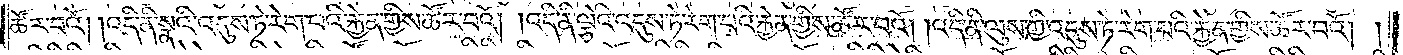ཚོར་བའོ། །འདི་ནི་སྣའི་འདུས་ཏེ་རེག་པའི་རྐྱེན་གྱིས་ཚོར་བའོ། །འདི་ནི་ལྕེའི་འདུས་ཏེ་རེག་པའི་རྐྱེན་གྱིས་ཚོར་བའོ། །འདི་ནི་ལུས་ཀྱི་འདུས་ཏེ་རེག་པའི་རྐྱེན་གྱིས་ཚོར་བའོ། །
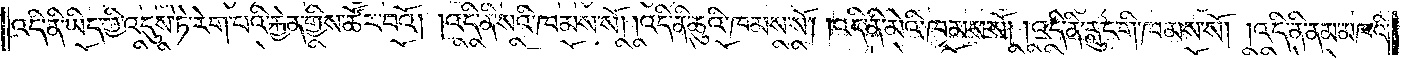འདི་ནི་ཡིད་ཀྱི་འདུས་ཏེ་རེག་པའི་རྐྱེན་གྱིས་ཚོར་བའོ། །འདི་ནི་སའི་ཁམས་སོ། །འདི་ནི་ཆུའི་ཁམས་སོ། །འདི་ནི་མེའི་ཁམས་སོ། །འདི་ནི་རླུང་གི་ཁམས་སོ། །འདི་ནི་ནམ་མཁའི་
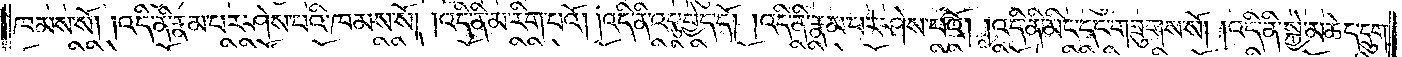ཁམས་སོ། །འདི་ནི་རྣམ་པར་ཤེས་པའི་ཁམས་སོ། །འདི་ནི་མ་རིག་པའོ། །འདི་ནི་འདུ་བྱེད་དོ། །འདི་ནི་རྣམ་པར་ཤེས་པའོ། །འདི་ནི་མིང་དང་གཟུགས་སོ། །འདི་ནི་སྐྱེ་མཆེད་དྲུག་
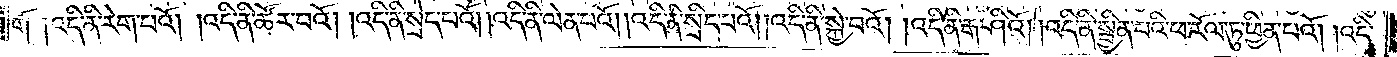གོ །འདི་ནི་རེག་པའོ། །འདི་ནི་ཚོར་བའོ། །འདི་ནི་སྲེད་པའོ། །འདི་ནི་ལེན་པའོ། །འདི་ནི་སྲིད་པའོ། །འདི་ནི་སྐྱེ་བའོ། །འདི་ནི་རྒ་ཤིའོ། །འདི་ནི་སྦྱིན་པའི་ཕ་རོལ་ཏུ་ཕྱིན་པའོ། །འདི་
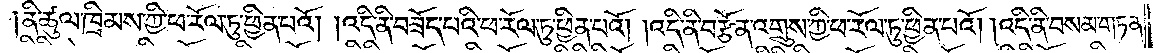ནི་ཚུལ་ཁྲིམས་ཀྱི་ཕ་རོལ་ཏུ་ཕྱིན་པའོ། །འདི་ནི་བཟོད་པའི་ཕ་རོལ་ཏུ་ཕྱིན་པའོ། །འདི་ནི་བརྩོན་འགྲུས་ཀྱི་ཕ་རོལ་ཏུ་ཕྱིན་པའོ། །འདི་ནི་བསམ་གཏན་
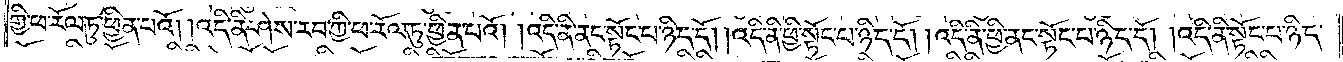གྱི་ཕ་རོལ་ཏུ་ཕྱིན་པའོ། །འདི་ནི་ཤེས་རབ་ཀྱི་ཕ་རོལ་ཏུ་ཕྱིན་པའོ། །འདི་ནི་ནང་སྟོང་པ་ཉིད་དོ། །འདི་ནི་ཕྱི་སྟོང་པ་ཉིད་དོ། །འདི་ནི་ཕྱི་ནང་སྟོང་པ་ཉིད་དོ། །འདི་ནི་སྟོང་པ་ཉིད་
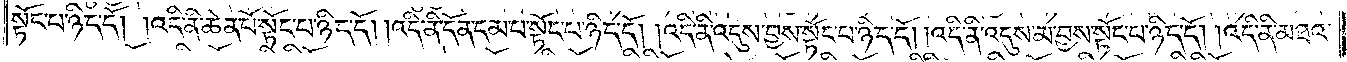སྟོང་པ་ཉིད་དོ། །འདི་ནི་ཆེན་པོ་སྟོང་པ་ཉིད་དོ། །འདི་ནི་དོན་དམ་པ་སྟོང་པ་ཉིད་དོ། །འདི་ནི་འདུས་བྱས་སྟོང་པ་ཉིད་དོ། །འདི་ནི་འདུས་མ་བྱས་སྟོང་པ་ཉིད་དོ། །འདི་ནི་མཐའ་
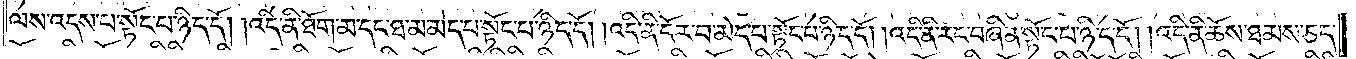ལས་འདས་པ་སྟོང་པ་ཉིད་དོ། །འདི་ནི་ཐོག་མ་དང་ཐ་མ་མེད་པ་སྟོང་པ་ཉིད་དོ། འདི་ནི་དོར་བ་མེད་པ་སྟོང་པ་ཉིད་དོ། །འདི་ནི་རང་བཞིན་སྟོང་པ་ཉིད་དོ། །འདི་ནི་ཆོས་ཐམས་ཅད་
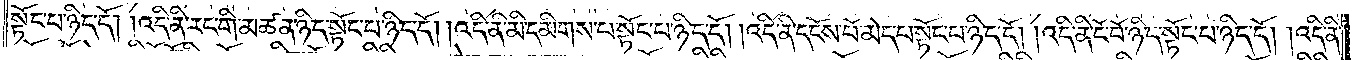སྟོང་པ་ཉིད་དོ། །འདི་ནི་རང་གི་མཚན་ཉིད་སྟོང་པ་ཉིད་དོ། །འདི་ནི་མི་དམིགས་པ་སྟོང་པ་ཉིད་དོ། །འདི་ནི་དངོས་པོ་མེད་པ་སྟོང་པ་ཉིད་དོ། །འདི་ནི་ངོ་བོ་ཉིད་སྟོང་པ་ཉིད་དོ། །འདི་ནི་
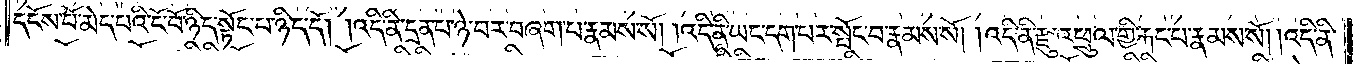དངོས་པོ་མེད་པའི་ངོ་བོ་ཉིད་སྟོང་པ་ཉིད་དོ། །འདི་ནི་དྲན་པ་ཉེ་བར་བཞག་པ་རྣམས་སོ། །འདི་ནི་ཡང་དག་པར་སྤོང་བ་རྣམས་སོ། །འདི་ནི་རྫུ་འཕྲུལ་གྱི་རྐང་པ་རྣམས་སོ། །འདི་ནི་
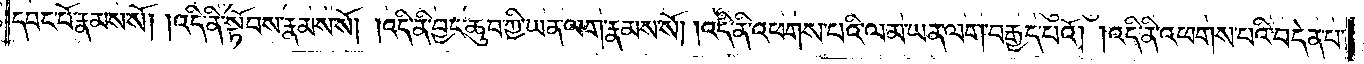དབང་པོ་རྣམས་སོ། །འདི་ནི་སྟོབས་རྣམས་སོ། །འདི་ནི་བྱང་ཆུབ་ཀྱི་ཡན་ལག་རྣམས་སོ། །འདི་ནི་འཕགས་པའི་ལམ་ཡན་ལག་བརྒྱད་པའོ། །འདི་ནི་འཕགས་པའི་བདེན་པ་
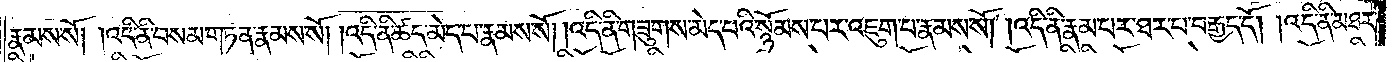རྣམས་སོ། །འདི་ནི་བསམ་གཏན་རྣམས་སོ། །འདི་ནི་ཚད་མེད་ པ་རྣམས་སོ། །འདི་ནི་གཟུགས་མེད་པའི་སྙོམས་པར་འཇུག་པ་རྣམས་ སོ། །འདི་ནི་རྣམ་པར་ཐར་པ་བརྒྱད་དོ། །འདི་ནི་མཐར་
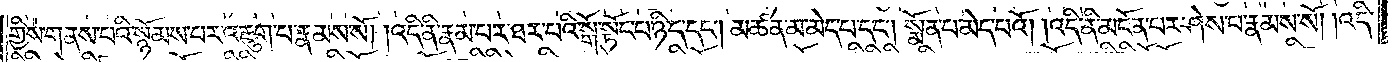གྱིས་གནས་པའི་སྙོམས་པར་འཇུག་པ་རྣམས་སོ། །འདི་ནི་རྣམ་པར་ཐར་པའི་སྒོ་སྟོང་པ་ཉིད་དང༌། མཚན་མ་མེད་པ་དང༌། སྨོན་པ་མེད་པའོ། །འདི་ནི་མངོན་པར་ཤེས་པ་རྣམས་སོ། །འདི་
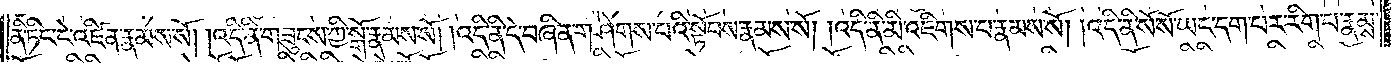ནི་ཏིང་ངེ་འཛིན་རྣམས་སོ། །འདི་ནི་གཟུངས་ཀྱི་སྒོ་རྣམས་སོ། །འདི་ནི་དེ་བཞིན་གཤེགས་པའི་སྟོབས་རྣམས་སོ། །འདི་ནི་མི་འཇིགས་པ་རྣམས་སོ། །འདི་ནི་སོ་སོ་ཡང་དག་པར་རིག་པ་རྣམས་
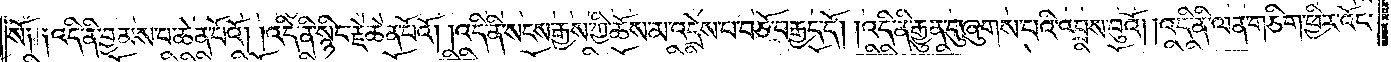སོ༑ ༑འདི་ནི་བྱམས་པ་ཆེན་པོའོ། །འདི་ནི་སྙིང་རྗེ་ཆེན་པོའོ། །འདི་ནི་སངས་རྒྱས་ཀྱི་ཆོས་མ་འདྲེས་པ་བཅོ་བརྒྱད་དོ། །འདི་ནི་རྒྱུན་དུ་ཞུགས་པའི་འབྲས་བུའོ། །འདི་ནི་ལན་གཅིག་ཕྱིར་འོང་
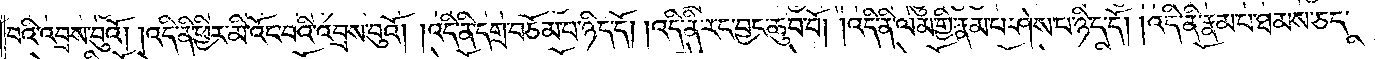བའི་འབྲས་བུའོ། །འདི་ནི་ཕྱིར་མི་འོང་བའི་འབྲས་བུའོ། །འདི་ནི་དགྲ་བཅོམ་པ་ཉིད་དོ། །འདི་ནི་རང་བྱང་ཆུབ་བོ། །འདི་ནི་ལམ་གྱི་རྣམ་པར་ཤེས་པ་ཉིད་དོ། །འདི་ནི་རྣམ་པ་ཐམས་ཅད་
